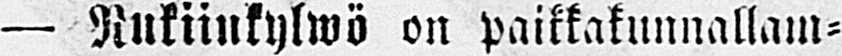— Rukiinkylwö on paikkakunnallam-
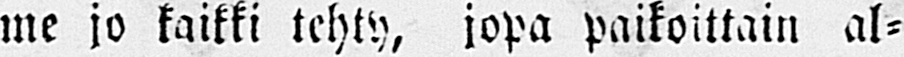me jo kaikki tehty, jopa paikoittain al-
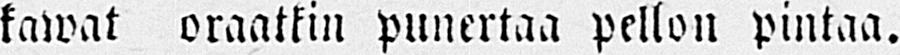kawat oraatkin punertaa pellon pintaa.
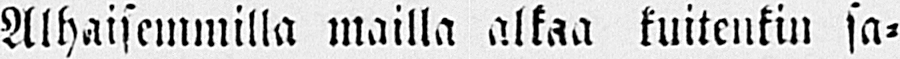Alhaisemmilla mailla alkaa kuitenkin sa-
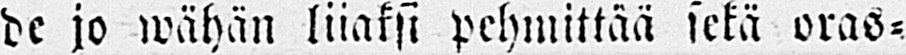de jo wähän liiaksi pehmittää sekä oras-
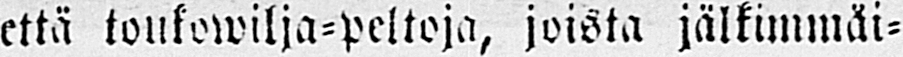että toukowilja-peltoja, joista jälkimmäi-
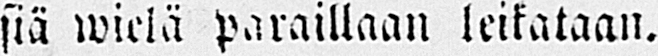siä wielä paraillaan leikataan.
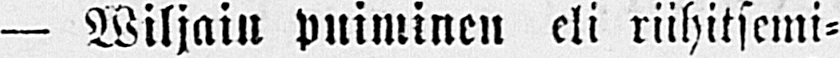— Wiljain puiminen eli riihitsemi-
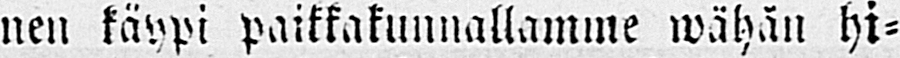nen käypi paikkakunnallamme wähän hi-
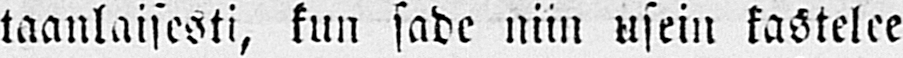taanlaisesti, kun sade niin usein kastelee
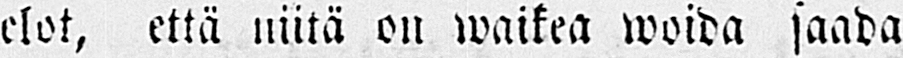elot, että niitä on waikea woida saada
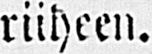riiheen.
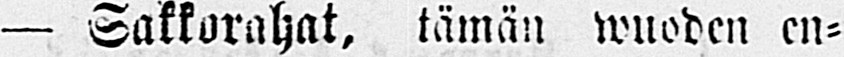— Sakkorahat, tämän wuoden en-
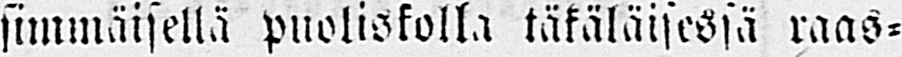simmäisellä puoliskolla täkäläisessä raas-
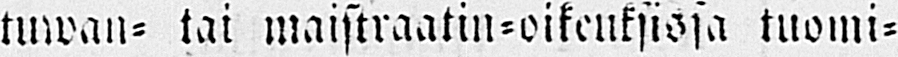taman- tai maistraatin-oikeuksissa tuomi-
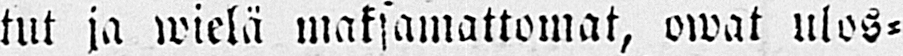tut ja wielä maksamattomat, owat ulos-
